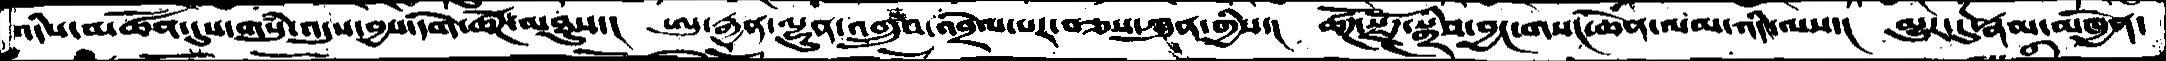འདིས་མཚོན་དུས་གསུཾ་འདུས་བྱས་དགེ་ཚོཌ་མཐུས་།  ཨུ་རྒྱན་ལྷུན་འགྲུབ་འབྲེལ་པར་བཅས་ཀུན་གྱིས་།  ཚོཌ་སྫོཌ་སྒྲིབ་བྱང་གསང་ཆེན་ལམ་འདི་ལས་།  མྱུར་དུ་རྣམ་མཁྱེན་
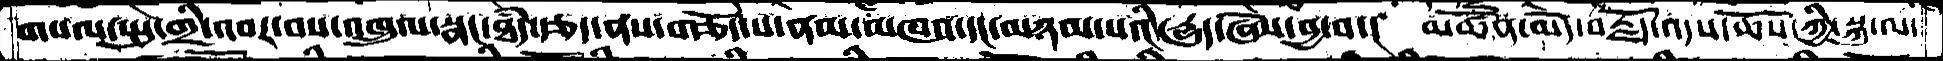གསལ་སྤུ་གྲི་འབར་བས་འཁྲུལ་སྣང་ཐདཾ་རྩད་ནས་གཅོད་པ་ནམ་མཁའ་དང་མཉམ་པའི་དྱུད་ཞེས་བྱ་བ་།  མཚོན་མེད་བརྗོད་འདས་ཆོས་ཀྱི་སྐུ་ལ་
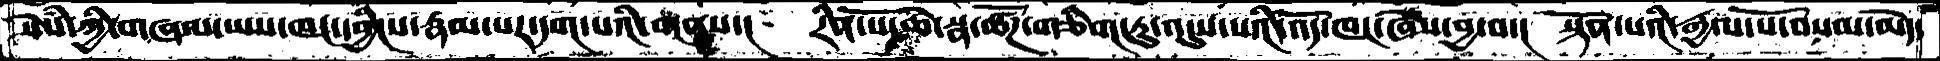སེསཾ་ཀྱི་གཞལ་ཡས་ཁང་དབྱིངས་རྣམ་པར་དག་པའི་གནས་།  རིན་པོ་ཆེ་སྣ་ཚོཌ་གཅིག་ཏུ་འདུས་པའི་འོད་ཁང་ཞེས་བྱ་བ་།  སྟོན་པའི་རྒྱལ་པོ་བསམ་མེད་
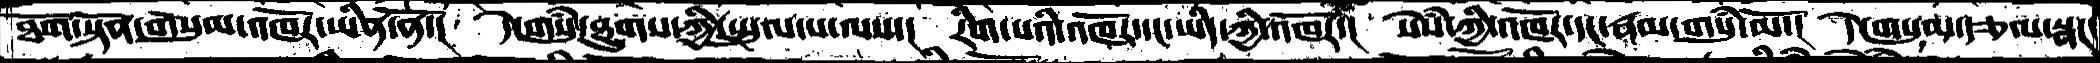ཐོག་སྟོན་གསུམ་འཁོར་ཡིན་ནོ་།  དེ་གསུཾ་ཐུགས་ཀྱི་སྤྲུལ་པ་ལས་།  རིག་པའི་འཁོར་དང་ཡིད་ཀྱི་འཁོར་།  སེཾས་ཀྱི་འཁོར་དང་རྣམ་གསུཾ་མོ་།  དེ་གསུམ་རྩལ་སྣང་
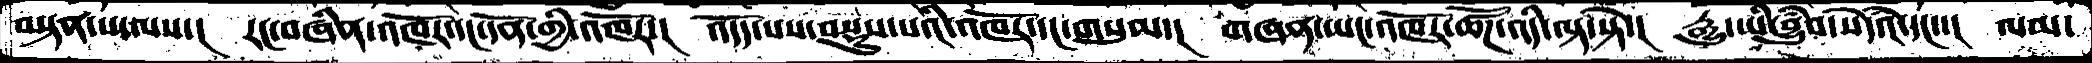བསྟན་པ་ལས་།  རང་བཞིན་འཁོར་དང་དོན་གྱི་འཁོར་།  འདོད་པས་བསྡུས་པའི་འཁོར་དང་གསུམ་།  གཞན་ཡང་འཁོར་ཚོཌ་འདི་ལྟ་སྟེ་།  རྒྱུ་ཡི་བྱུཾབ་སེདཾའ་དང་་།  ལམ་
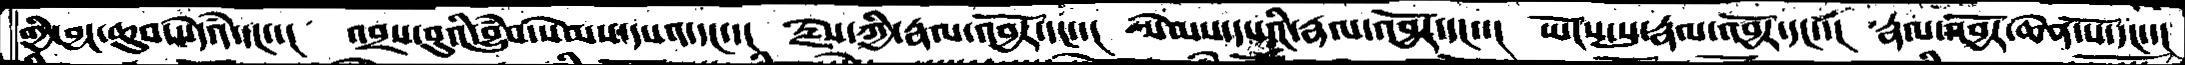གྱི་བྱང་ཆུབ་སེདཾའ་དང་་།  འབྲས་བུའི་བྱུཾབ་སེམས་དཔའ་དང་་།  རྗེས་ཀྱི་རྣལ་འབྱོར་དང་།  སེམས་དཔའི་རྣལ་འབྱོར་དང་་།  ཡོངས་སུ་རྣལ་འབྱོར་དང་་།  རྣལ་འབྱོར་ཆེན་པོ་དང་་།
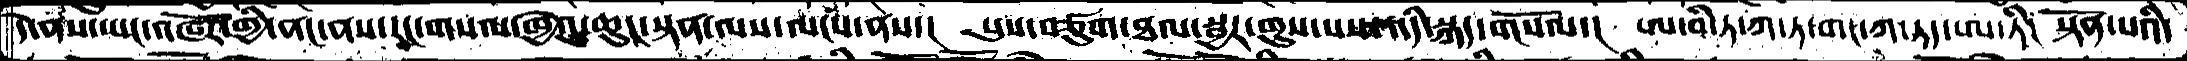དེ་ནས་ཡང་འཁོར་གྱི་ནང་ནས་རང་གསལ་ཁྱེའུ་ཆུང་སྟན་ལས་ལངས་ནས་།  པུས་བཙུག་ཐལ་སྦྱར་གུས་པས་འདི་སྐད་གསོལ་།  ཨ་བི་ཏ་ཀ་ཏ་གང་ཀ་ཏད་ཨ་ཏི།  སྟོན་པའི་
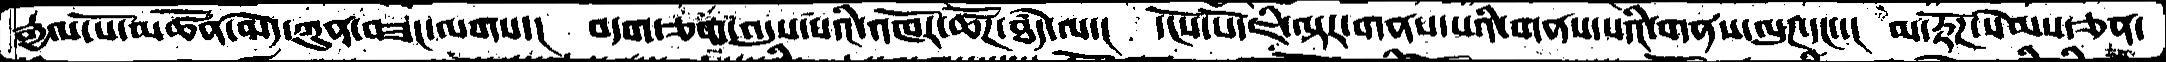རྒྱལ་པོ་མཚོན་མེད་ཀུན་བཟང་ལགས་།  བདག་ཅག་འདུས་པའི་འཁོར་ཚོཌ་ཐཾད་ལ་།  དངོས་པོ་ཇི་ལྟར་གནས་པའི་གནས་པའི་གནས་ལུཌ་དང་།  མ་རྟོཌ་སེམས་ཅན་
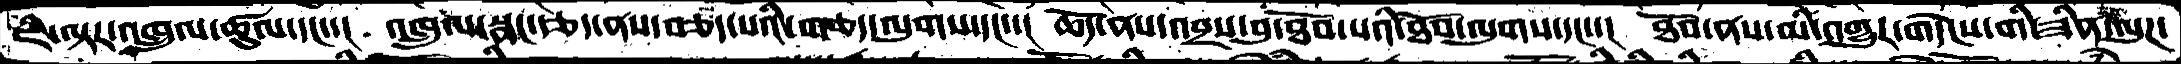ཇི་ལྟར་འཁྲུལ་ཚུལ་དང་་།  འཁྲུལ་སྣང་རྩད་ནས་བཅད་པའི་གཅད་ལུགས་དང་་།  ཆོད་ནས་འབྲས་བུ་ཐོབ་པའི་ཐོབ་ལུགས་དང་་།  ཐོབ་ནས་མི་འགྱུར་གདེངས་གི་ཟིན་ལུཌ་
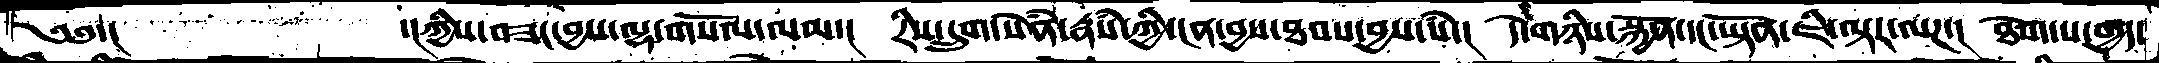༄༅་།     ་།ཀྱིས་བཟང་བྱས་ལྷ་གསོལ་ལམ་།  རིས་དྲུག་སེཾན་རྣཾས་ཀྱི་ངན་བྱས་ཐབས་བྱས་སོ་།  དེ་གཉིས་སྐྱོན་དང་ཡྟོན་ཇི་ལྟར་ལཌ་།  ཐེག་པ་བདྱད་
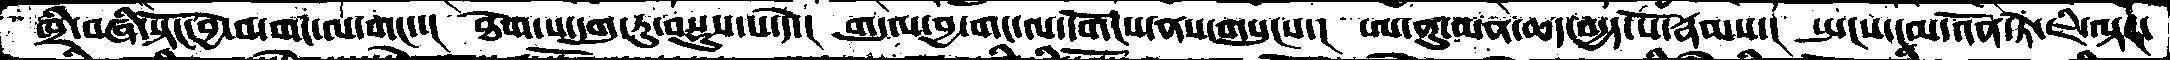ཁྲི་བཞི་སྟོང་བྱེ་བ་གང་ལ་གང་་།  ཐེག་པ་དགུ་རུ་བསྡུས་པ་དེ་།  གདུལ་བྱ་གང་ལ་དགོངས་ནས་གསུངས་།  ཨ་ནུ་མན་ཆད་བདྱད་པོ་རྣམས་།  སྤངས་ངམ་འོན་ཏེ་ཇི་ལྟར་
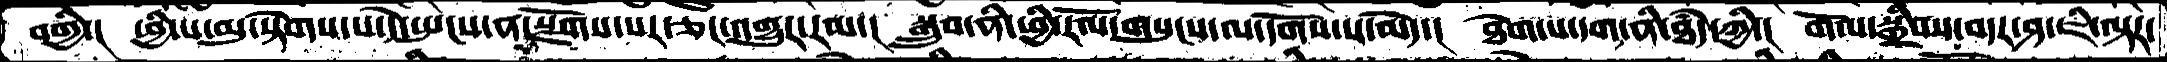བགྱི་།  ཕྱི་པ་མུ་སྟེགས་པ་དེ་སྤངས་ན་སྫོགས་པར་ཅང་འགྱུར་རམ་།  སྒྲུབ་ནི་ཕྱི་རོལ་གསུངས་ལ་དགོས་པ་མེད་།  ཐེག་པ་དག་ནི་ཐཾད་ཀྱི་།  གོལ་སྒྲིབས་བདར་ཤ་ཇི་ལྟར་
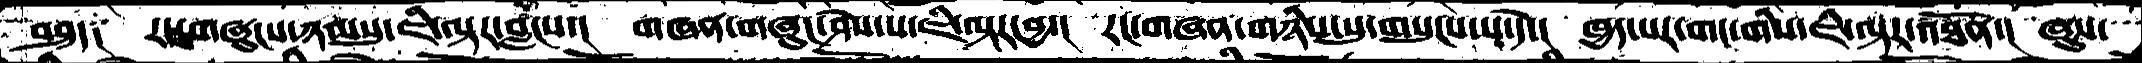བཤད༑  རང་གཞུངས་ཉམསུ་ཇི་ལྟར་བླངས་།  གཞན་གཞུང་ཤེས་པ་ཇི་ལྟར་བྱ་།  རང་གཞན་གཉིས་སུ་གསུངས་པ་དེ་།  ཁྱད་པར་གང་གིས་ཇི་ལྟར་འཐོན་།  ཞུས་
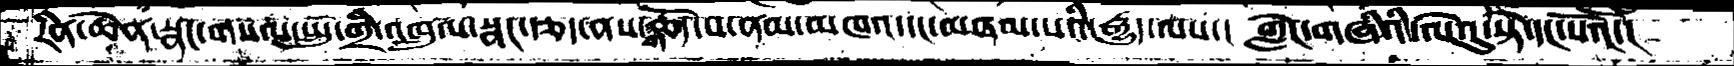རིན་ཆེན་སྣང་གསལ་སྤྲུ་གྲི་འཁྲུལ་སྣང་རྩད་ནས་གཅོད་པ་ནམ་མཁའ་དང་མཉམ་པའི་རྒྱུད་ལས་། གླེང་གཞིའི་ལེའུ་སྟེ་དང་པོའོ་།
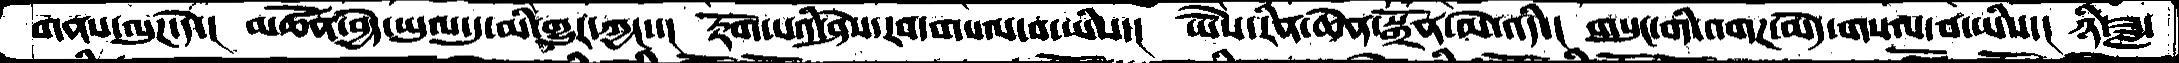གནས་ལུཌ་དེ་།   མཚོན་བྱེད་ཡུལ་དུ་མི་གྱུར་ཀྱང་་།  རྟོག་པའི་ཤེས་རབ་གསལ་བ་ཡིས་།  ཡཻས་རིན་ཆེན་སྒྲོན་མེ་འདི་།  གསུང་གི་འགཌ་མེད་གསལ་བ་ཡིས་།  ཉི་ཟླ་
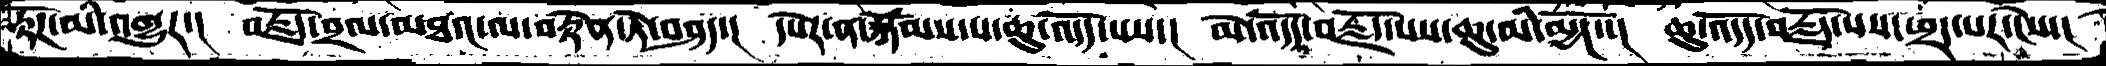རྟོཌ་མི་འགྱུར་།  བརྗོད་བྲལ་མཐའ་ལ་བརྟེན་ཏེ་བཤད་།  དཔེར་ན་སྐོམས་པ་ཆུ་འོདད་པས་།  མེ་འོདད་བརྗོད་པས་ཆུ་མི་མྱོང་་།  ཆུ་འོདད་བརྗོད་པས་ཕྲད་པར་ངེས་།
